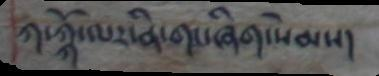ཀ་ཀྐོ་ལར་ནི་གང་ཞིག་སེམས།
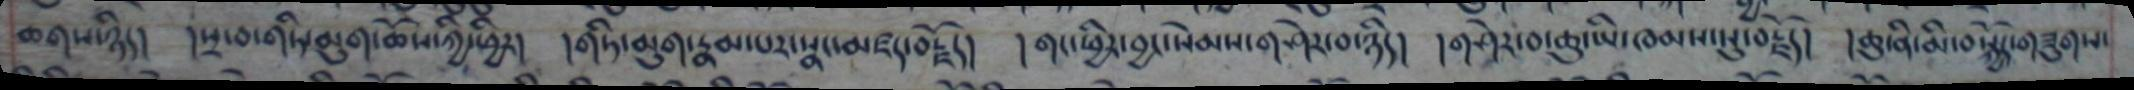ཆགས་ཉིད། །སྲ་བ་གཏི་མུག་ཆོས་ཀྱི་ཕྱིར། །གཏི་མུག་རྣམ་པར་སྣང་མཛད་བརྗོད། །གང་ཕྱིར་བྱང་སེམས་གཤེར་བ་ཉིད། །གཤེར་བ་ཆུ་ཡི་ཁམས་སུ་བརྗོད། །ཆུ་ནི་མི་བསྐྱོད་གཟུགས་
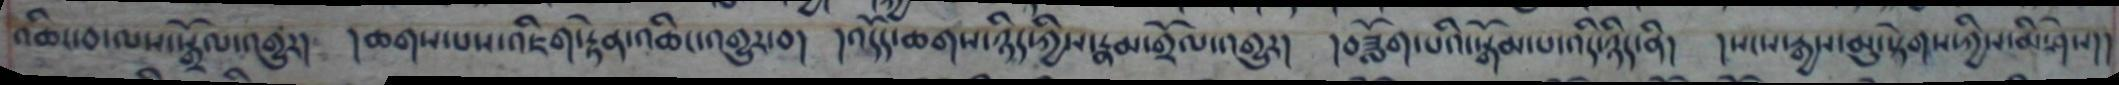འཆིང་བ་ལས་སྒྲོལ་འགྱུར། །ཆགས་པས་འཇིག་རྟེན་འཆིང་འགྱུར་བ། །འདོད་ཆགས་ཉིད་ཀྱིས་རྣམ་གྲོལ་འགྱུར། །བཟློག་པའི་སྒོམ་པ་འདི་ཉིད་ནི། །སངས་རྒྱས་མུ་སྟེགས་ཀྱིས་མི་ཤེས།།
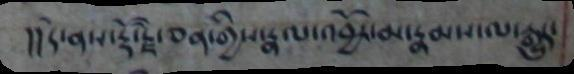།།དེ་ནས་རྡོ་རྗེ་ཅན་གྱིས་རྣལ་འབྱོར་མ་རྣམས་ལ་རྒྱུད།
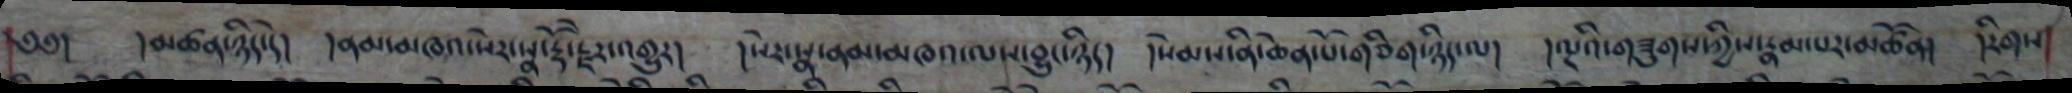༄༅། །མཚན་ཉིད་དེ། །ནམ་མཁའ་སེར་སྣ་རྡོ་རྗེར་འགྱུར། །སེར་སྣ་ནམ་མཁའ་ལས་བྱུང་ཉིད། །སེམས་ནི་ཆེན་པོ་གཅིག་ཉིད་ལ། །ལྔའི་གཟུགས་ཀྱིས་རྣམ་པར་མཚོན། །རིགས
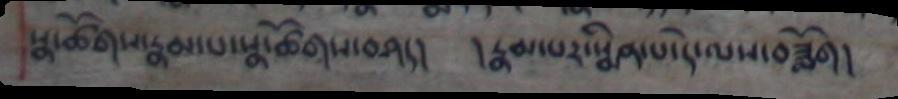སྣ་ཚོགས་རྣམ་པ་སྣ་ཚོགས་བཤད། །རྣམ་པར་སྨིན་པ་དེ་ལས་བཟློག།
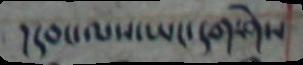།དབང་ལས་ཡང་དག་ཤེས
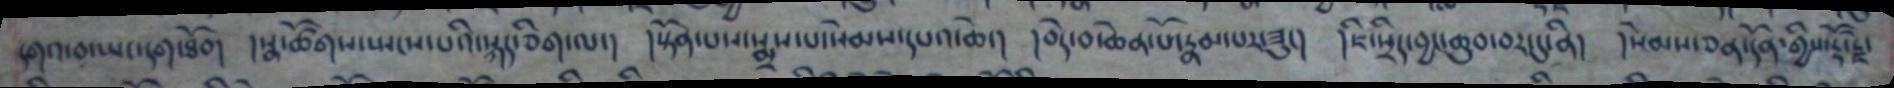དགའ་བ་ཡང་དག་ཐོབ། །སྣ་ཚོགས་སྤངས་པའི་སྐད་ཅིག་ལ་། །སྟོན་པས་སྨྲས་པ་སེམས་དཔའ་ཆེ་། །བདེ་བ་ཆེན་པོ་རྣམ་པར་ཟུང། །ཇི་སྲིད་བྱང་ཆུབ་བར་དུ་ནི། །སེམས་ཅན་དོན་གྱིས་རྡོ་རྗེ་
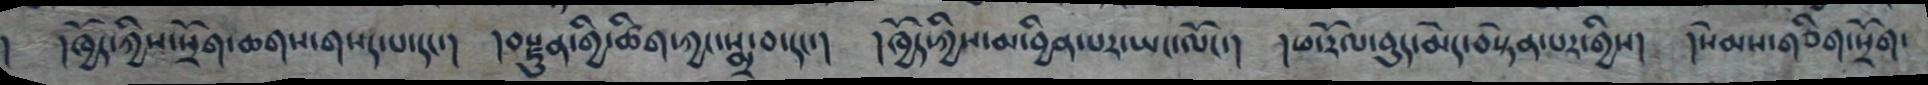། །ཁྱོད་ཀྱིས་སྲོག་ཆགས་གསད་པ་དང་། །བསྡུན་གྱི་ཚིག་ཀྱང་སྨྲ་བ་དང་། །ཁྱོད་ཀྱིས་མ་བྱིན་པར་ཡང་ལོང་། །ཕ་རོལ་བུད་མེད་བསྟེན་པར་གྱིས། །སེམས་གཅིག་སྲོག་
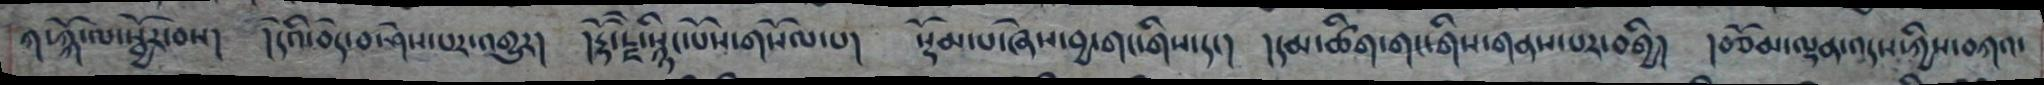ཀ་ཀྐོ་ལ་སྦྱོར་བས། །དེའི་བདེ་བ་ཤེས་པར་འགྱུར། །རྡོ་རྗེ་སྙིང་པོས་གསོལ་པ། སྡོམ་པ་ཞེས་བྱ་གང་གིས་དང་། །དམ་ཚིག་གང་གིས་གནས་པར་བགྱི། །བཅོམ་ལྡན་འདས་ཀྱིས་བཀའ་
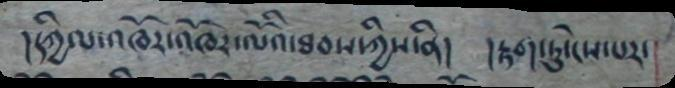།དཀྱིལ་འཁོར་འཁོར་ལོའི་ཐབས་ཀྱིས་ནི། །རྟག་ཏུ་ངེས་པར་
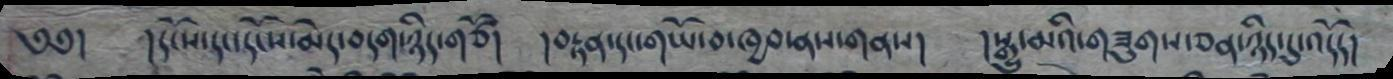༄༅། །དངོས་དང་དངོས་མེད་བདག་ཉིད་གཙོ། །བརྟན་དང་གཡོ་བ་ཁྱབ་ནས་གནས། །སྒྱུ་མའི་གཟུགས་ཅན་ཉིད་དུ་འདོད།
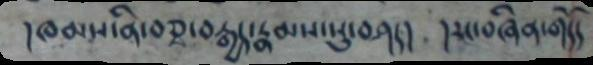།ཁམས་ནི་བཅྭ་བརྒྱད་རྣམས་སུ་བཤད། །རང་བཞིན་གདོད
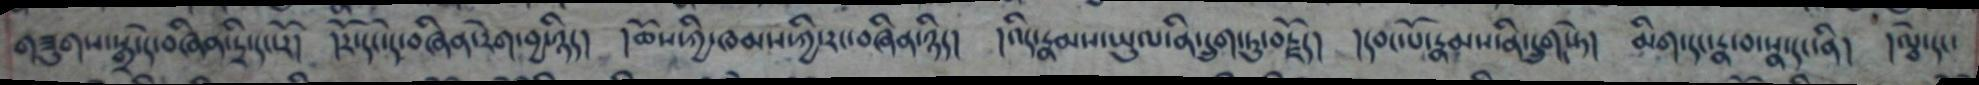གཟུགས་སྒྲ་དེ་བཞིན་དྲི་དང་རོ། །རོ་དང་དེ་བཞིན་རེག་བྱ་ཉིད། །ཆོས་ཀྱི་ཁམས་ཀྱི་རང་བཞིན་ཉིད། །འདི་རྣམས་ཡུལ་ནི་དྲུག་ཏུ་བརྗོད། །དབང་པོ་རྣམས་ནི་དྲུག་ཏེ། མིག་དང་རྣ་བ་སྣ་དང་ནི། །ལྕེ་དང་
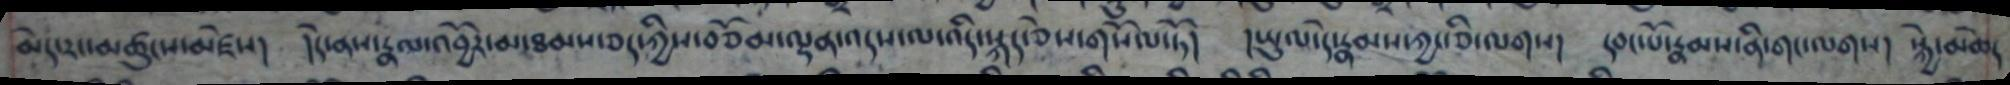མེད་རང་མཚུངས་མཛེས། །དེ་ནས་རྣལ་འབྱོར་མ་ཐབས་ཅད་ཀྱིས་བཅོམ་ལྡན་འདས་ལ་འདི་སྐད་ཅེས་གསོལ་ཏོ། །ཡུལ་དེ་རྣམས་ཀྱང་ཅི་ལགས། དབང་པོ་རྣམས་ནི་གང་ལགས། སྐྱེ་མཆེད
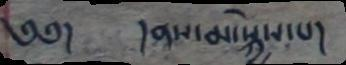༄༅། །ནས་མ་སྐྱེས་པ།
